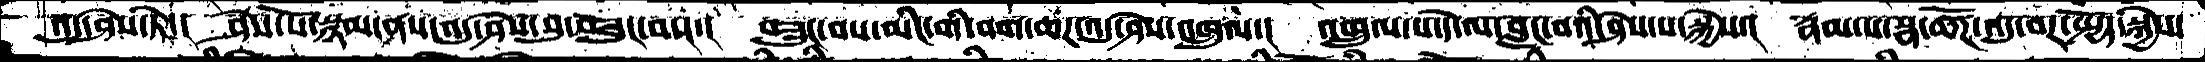འདུ་ཤེས་ཏེ་།  ཤེས་སོ་སྙམ་ནས་འདུ་ཤེས་བུ་བཟུང་བས་།  བཟུང་བས་མིང་གི་བག་ཆཌ་འདུ་ཤེས་འཁྲུལ་།  འཁྲུལ་པ་དེ་ལ་བླང་བའི་ཤེས་པ་སྐྱེས་།  རྣམ་པ་སྣ་ཚོཌ་འདུ་བར་སྤྱོད་སྐྱེས་
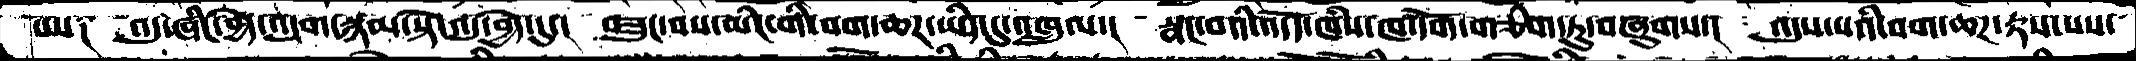པས༑  འདུ་ཞིང་བྱེད་འདུག་སྙམ་སྟེ་འདུ་བྱེད་དུ་།  བཟུང་བས་མིང་གི་བག་ཆཌ་ཡིད་དུ་འཁྲུལ་།  སྣང་བའི་འདོད་ཁཾས་ཁ་དོག་གཅིག་ཏུ་བཞུགས་།  འདུས་པའི་བག་ཆཌ་རྟས་ནས་
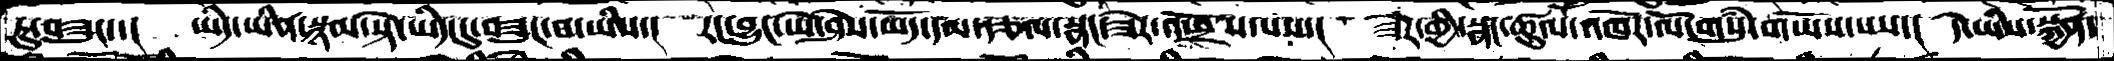ཏུ་བཟུང་་།  ཡིད་ཡིན་སྙམ་སྟེ་ཡིད་བཟུང་བ་ཡིས་།  རང་བྱུང་ཡེ་ཤེས་མདོ་དམ་རྩལ་སྣང་ཟེར་འཕྲོས་པས་།  ཟེར་གྱི་སྣང་ཚུལ་འཁོར་ལོ་གསུཾ་གཡོས་པས་།  དེ་ཡིས་སྐྱོན་
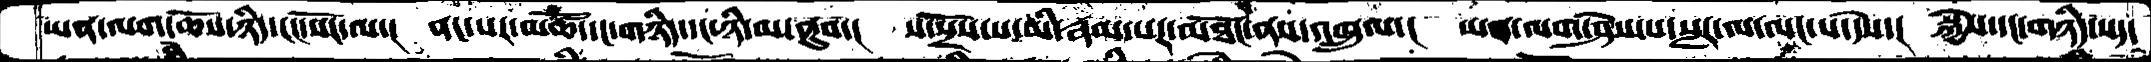ཡན་ལག་ཆོས་ཉིད་ངང་སོང་ལ་།  ནང་སར་མཚོ་དང་གཉིད་དང་ཉི་མ་ནུབ་།  ས་སྲོས་པ་ཡི་རྣམ་པར་མཐོང་ནས་འཁྲུལ་།  ཡན་ལག་ཤེས་པ་སླར་ལ་ལང་པ་དེས་།  སྐྱེས་དང་གཉིད་སད་
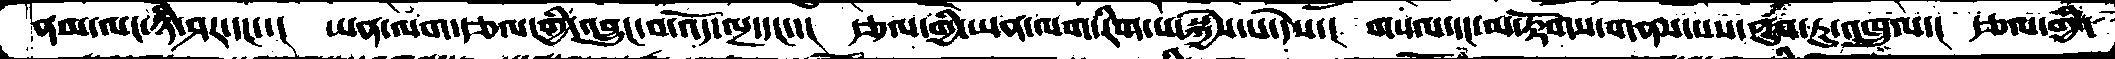ནམ་ལང་ཉི་ཤར་དང་་།  ཡན་ལག་རྩལ་གྱི་འབྱུང་བ་འོད་ལྔ་དང་་།  རྩལ་གྱི་ཡན་ལག་རིག་པ་སྐྱེས་པ་དེས་།  གསལ་དང་མ་རྟོགས་གནས་པས་ནུབ་ཏུ་འཁྲུལ་།  རྩལ་གྱི་
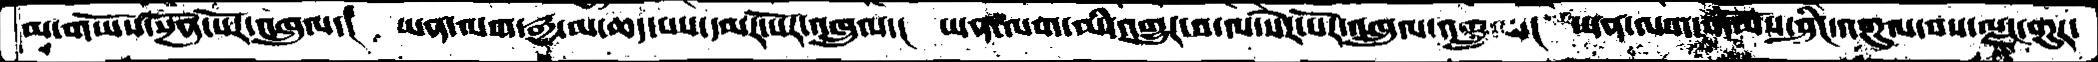མ་གཡོས་སྔོན་པོར་འཁྲུལ་།  ཡན་ལག་རྒྱ་མ་ཆད་པས་དམར་པོར་འཁྲུལ་།  ཡན་ལག་མི་འགྱུར་བ་ལ་སེར་པོར་འཁྲུལ་།  ཡན་ལག་གོམས་ཤིང་འགུལ་བས་ལྗང་གུར་
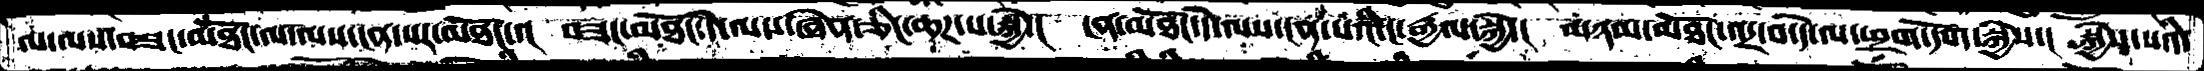ལ་ལས་བཟང་མཐོང་ལ་ལས་ངན་པར་མཐོང་་།  བཟང་མཐོང་དེ་ལས་ཞེན་ཅིང་ཆཌ་པ་སྐྱེ་།  ངན་མཐོང་དེ་ལས་ངན་པའི་ང་རྒྱལ་སྐྱེ་།  མཉམ་མཐོང་འདྲ་བ་དེ་ལ་ཕྲག་དོག་སྐྱེས་།  སྐྱེས་པའི་
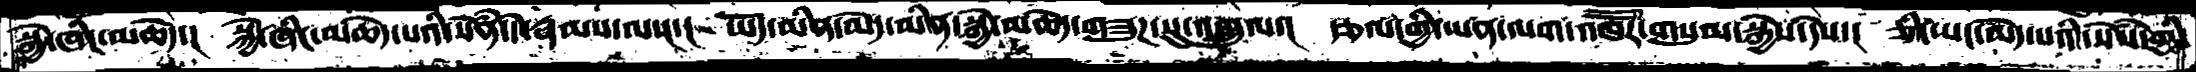སྐྱེ་ཞིང་མཆེད་།  སྐྱེ་ཞིང་མཆེད་པའི་སེཾན་དེ་རྣམས་ལས་།  ཡོད་མིན་མེད་མིན་སྐྱེ་མཆེད་གཟུཌ་སུ་འཁྲུལ་།  རྩལ་གྱི་ཡན་ལག་འཁཽར་གསུམ་སྐྱེས་དེས་།  ཅི་ཡང་མེད་པའི་སེཾས་ཀྱི་
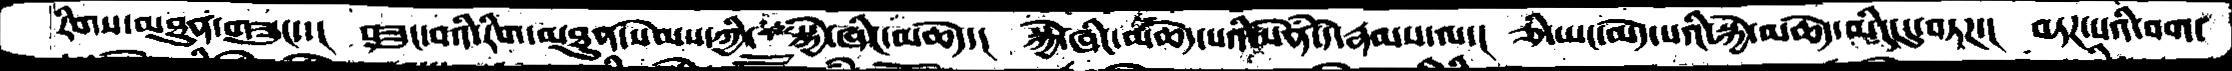རིགས་མཐུན་གཟུང་་།  བཟུང་བའི་རིག་མཐུན་སེམས་ཀྱི་  སྐྱེ་ཞིང་མཆེད་།  སྐྱེ་ཞིང་མཆེད་པའི་སེཾན་དེ་རྣམས་ལ་།  ཅི་ཡང་མེད་པའི་སྐྱེ་མཆེད་མིང་དུ་བཏཌ་།  བཏཌ་པའི་བག་
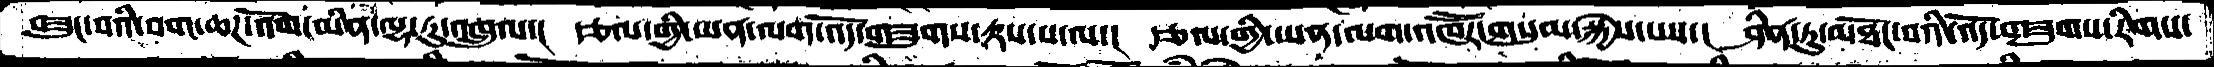བཟུང་བའི་བག་ཆཌ་འོག་མིན་ལྷ་རུ་འཁྲུལ་།  རྩལ་གྱི་ཡན་ལག་འོད་གཟུགས་རྟས་པ་ལ་།  རྩལ་གྱི་ཡན་ལག་འཁཽར་གསུམ་སྐྱེས་པས་།  ཤིན་ཏུ་མཐོང་བའི་འོད་གཟུགས་རིགས་
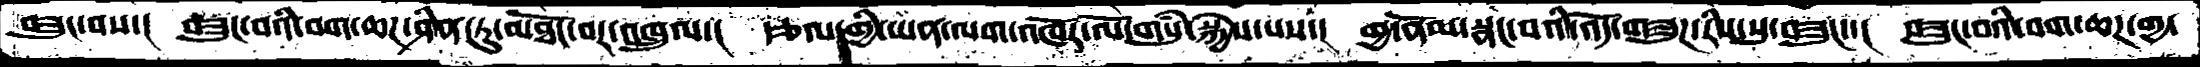བཟུང་བས་།  བཟུང་བའི་བག་ཆཌ་ཤིན་ཏུ་མཐོང་བར་འཁྲུལ་།  རྩལ་གྱི་ཡན་ལག་འཁོར་ལོ་གསུཾ་སྐྱེས་པས་།  གྱ་ནོམ་སྣང་བའི་འོད་གཟུཌ་རིས་སུ་བཟུང་་།  བཟུང་བའི་བག་ཆཌ་གྱ་
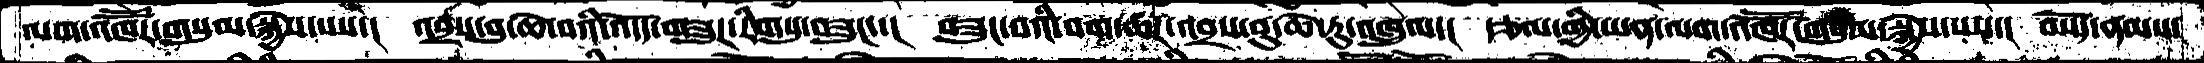ལག་འཁཽར་གསུང་སྐྱེས་པས་།  འབྲས་བུ་ཆེ་བའི་འདོད་གཟུཌ་རིགསུ་བཟུང་་།  བཟུང་བའི་བག་ཆཌ་འབྲས་བུ་ཆེ་རུ་འཁྲུལ་།  རྩལ་གྱི་ཡན་ལག་འཁཽར་གསུམ་སྐྱེས་པས་།  བསོད་ནམས་
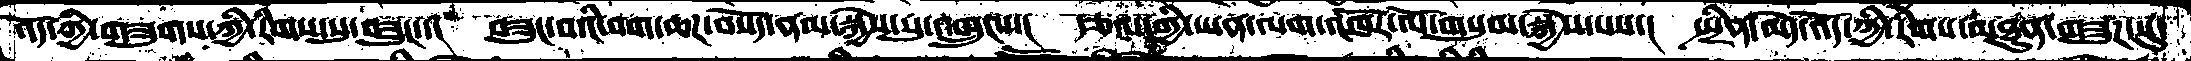འོད་ཀྱི་གཟུགས་ཀྱི་རིགས་སུ་བཟུང་་།  བཟུང་བའི་བག་ཆཌ་བསོད་ནམ་སྐྱེས་སུ་འཁྲུངས་།  རྩལ་གྱི་ཡན་ལག་འཁོར་ལོ་གསུམ་སྐྱེས་པས་།  སྤྲིན་མེད་འོད་ཀྱི་རིགས་མཐུན་གཟུཌ་སུ
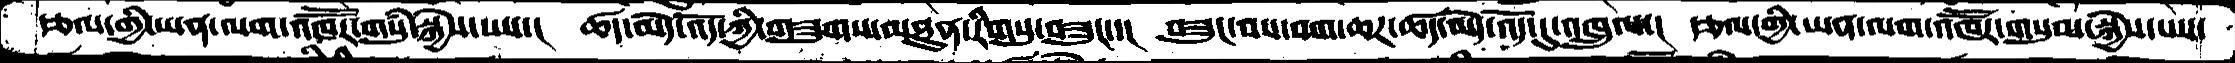རྩལ་གྱི་ཡན་ལག་འཁཽར་གསུཾ་སྐྱེས་པས་།  ཚད་མེད་འོད་ཀྱི་གཟུགས་མཐུན་རིགསུ་བཟུང་་།  བཟུང་བས་བག་ཆཌ་ཚད་མེད་འོད་དུ་འཁྲུལ་།  རྩལ་གྱི་ཡན་ལག་འཁཽར་གསུམ་སྐྱེས་པས་
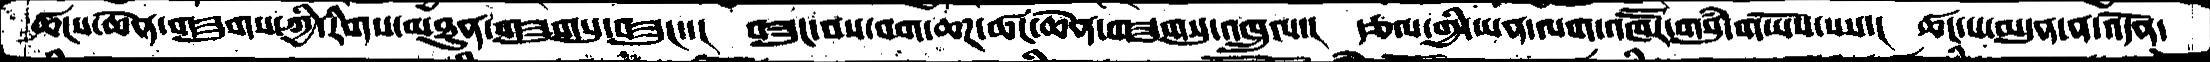ཚངས་ཆེན་གཟུགས་ཀྱི་རིགས་མཐུན་གཟུགསུ་བཟུང་་།  བཟུང་བས་བག་ཆཌ་ཚང་ཆེན་གཟུགསུ་འཁྲུལ་།  རྩལ་གྱི་ཡན་ལག་འཁཽར་གསུཾ་གཡོས་པས་།  ཚང་པ་མདུན་ན་འདོན་
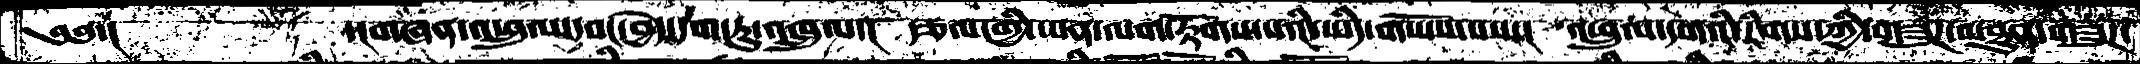༄༅་།     ་།གཞན་འཕྲུལ་དབང་བྱེད་དག་ཏུ་འཁྲུལ་།  རྩལ་གྱི་ཡན་ལག་རྟོགས་པའི་ཡིད་གཡོས་པས་།  འཕྲུལ་དགའི་རིགས་ཀྱི་གཟུཌ་མཐུན་གཟུཌ་
